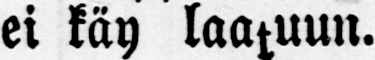ei käy laatuun.
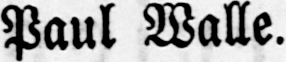Paul Walle.
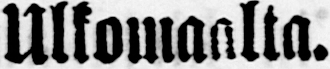Ulkomaalta.
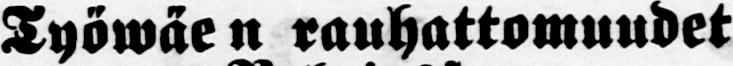Työwäen rauhattomuudet
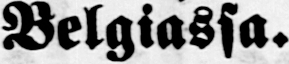Belgiassa.
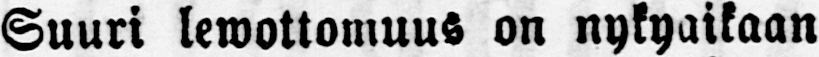Suuri lewottomuus on nykyaikaan
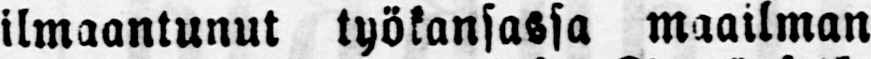ilmaantunut työkansassa maailman
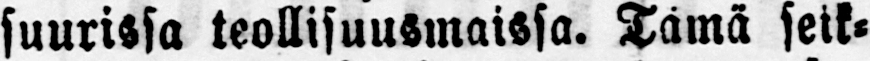suurissa teollisuusmaissa. Tämä seik-
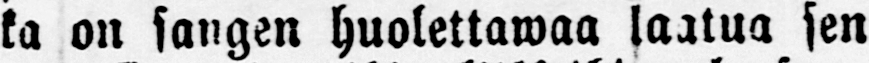ka on sangen huolettawan laatua sen
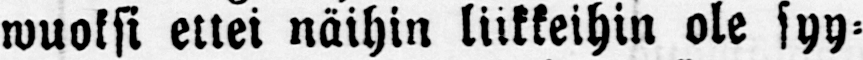wuoksi ettei näihin liekkeihin ole syy-
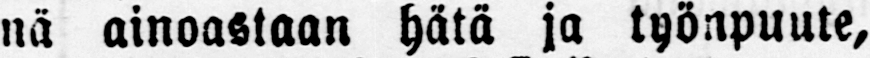nä ainoastaan hätä ja työnpuute,
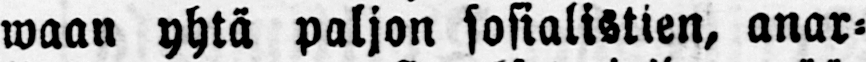waan yhtä paljon sosialistien, anar-
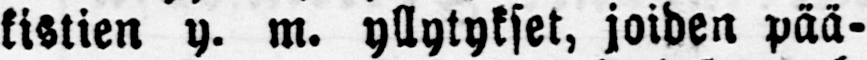kistien y. m. yllytykset, joiden pää-
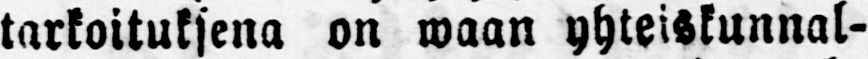tarkoituksena on waan yhteiskunnal-
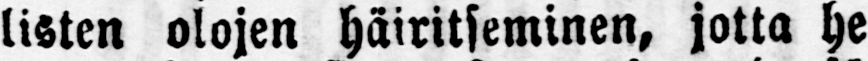listen olojen häiritseminen, jotta he
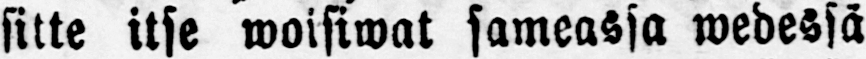sitte itse woisiwat sameassa wedessä
